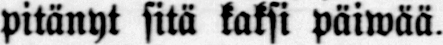pitänyt sitä kaksi päiwää.
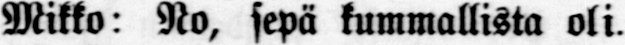Mikko: No, sepä kummallista oli.
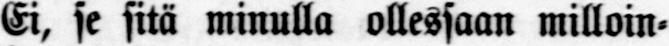Ei, se sitä minulla ollessaan milloin-
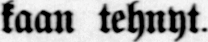kaan tehnyt.
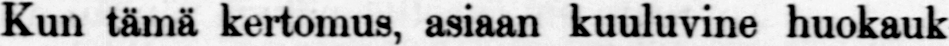Kun tämä kertomus, asiaan kuuluvine huokauk-
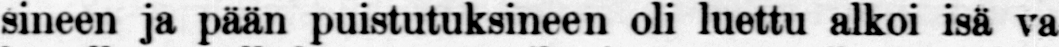sineen ja pään puistutuksineen oli luettu alkoi isä va-
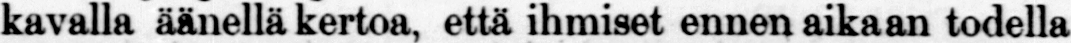kavalla äänellä kertoa, että ihimiset ennen aikaan todella
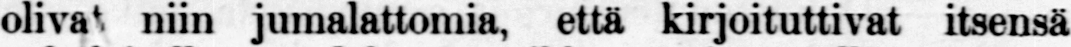olivat niin jumalattomia, että kirjoituttivat itsensä
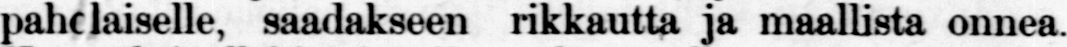paholaiselle, saadakseen rikkautta ja maallista onnea.
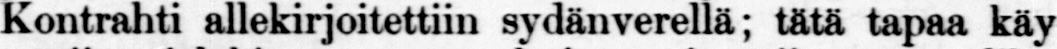Kontrahti allekirjoitettiin sydänverellä; tätä tapaa käy-
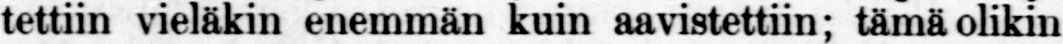tettiin vieläkin enemmän kuin aavistettiin; tämä olikin
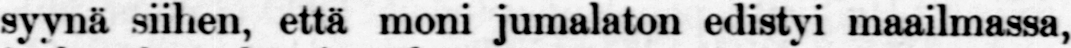syynä siihen, että moni jumalaton edistyi maailmassa,
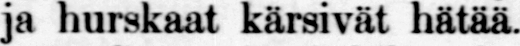ja hurskaat kärsivät hätää.
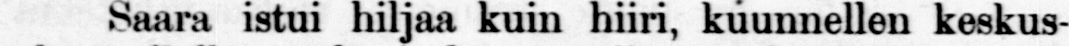Saara istui hiljaa kuin hiiri, kuunnellen keskus-
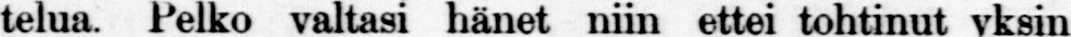telua, Pelko valtasi hänet niin ettei tohtinut yksin
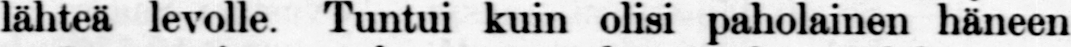lähteä levolle Tuntui kuin olisi paholainen häneen
